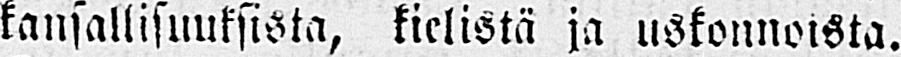kansallisuuksista, kielistä ja uskonnoista.
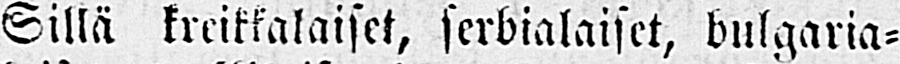Sillä kreikkalaiset, serbialaiset, bulgaria-
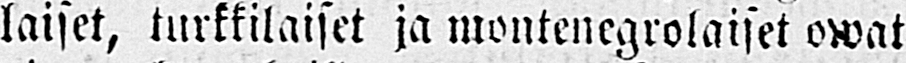laiset, turkkilaiset ja montenegrolaiset owat
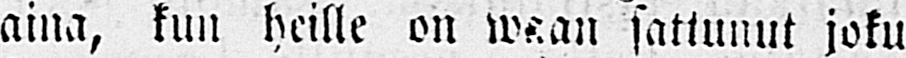aina, kun heille on waan sattunut joku
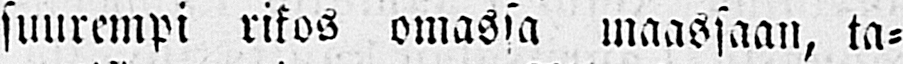suurempi rikos omassa maassaan, ta-
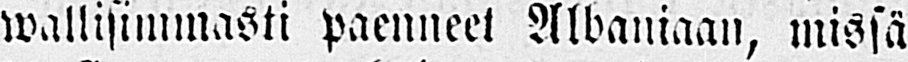wallisimmasti paenneet Albaniaan, missä
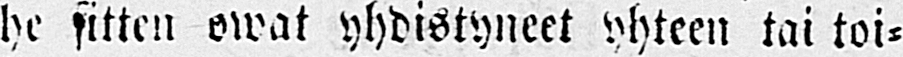he sitten owat yhdistyneet yhteen tai toi-
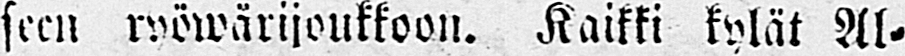seen ryöwärijoukkoon. Kaikki kylät Al-
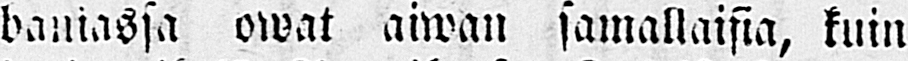baniassa owat aiwan samallaisia, kuin
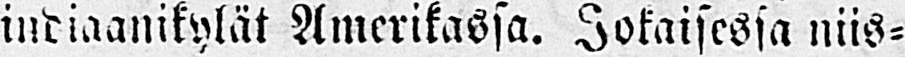indiaanikylät Amerikassa. Jokaisessa niis-
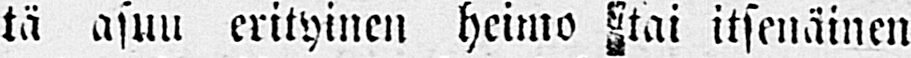tä asuu erityinen heimo tai itsenäinen
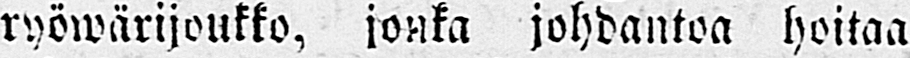ryöwärijoukko, jonka johdantoa hoitaa
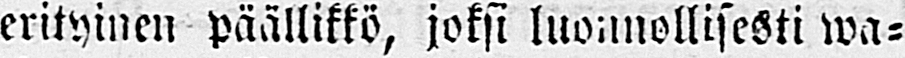erityinen päällikkö, joksi luonnollisesti wa-
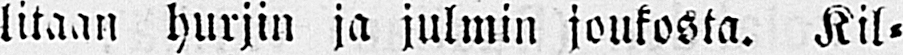litaan hurjin ja julmin joukosta. Kil-
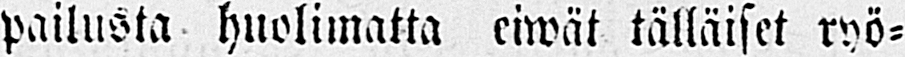pailusta huolimatta eiwät tälläiset ryö-
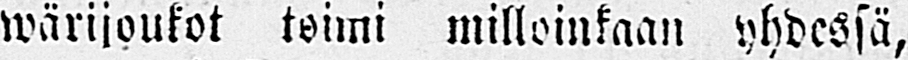wärijoukot toimi milloinkaan yhdessä,
